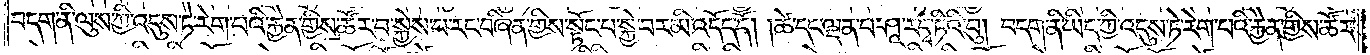བདག་ནི་ལུས་ཀྱི་འདུས་ཏེ་རེག་པའི་རྐྱེན་གྱིས་ཚོར་བ་སྐྱེས་པ་རང་བཞིན་གྱིས་སྟོང་པ་སྐྱེ་བར་མི་འདོད་དོ། །ཚེ་དང་ལྡན་པ་ཤཱ་ར་དྭ་ཏིའི་བུ། བདག་ནི་ཡིད་ཀྱི་འདུས་ཏེ་རེག་པའི་རྐྱེན་གྱིས་ཚོར་
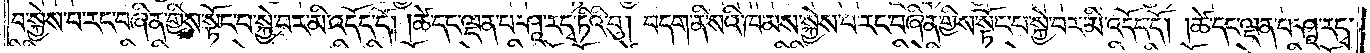བ་སྐྱེས་པ་རང་བཞིན་གྱིས་སྟོང་པ་སྐྱེ་བར་མི་འདོད་དོ། །ཚེ་དང་ལྡན་པ་ཤཱ་ར་དྭ་ཏིའི་བུ། བདག་ནི་སའི་ཁམས་སྐྱེས་པ་རང་བཞིན་གྱིས་སྟོང་པ་སྐྱེ་བར་མི་འདོད་དོ། །ཚེ་དང་ལྡན་པ་ཤཱ་ར་དྭ་
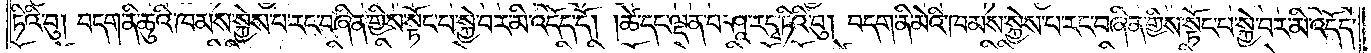ཏིའི་བུ། བདག་ནི་ཆུའི་ཁམས་སྐྱེས་པ་རང་བཞིན་གྱིས་སྟོང་པ་སྐྱེ་བར་མི་འདོད་དོ། །ཚེ་དང་ལྡན་པ་ཤཱ་ར་དྭ་ཏིའི་བུ། བདག་ནི་མེའི་ཁམས་སྐྱེས་པ་རང་བཞིན་གྱིས་སྟོང་པ་སྐྱེ་བར་མི་འདོད་
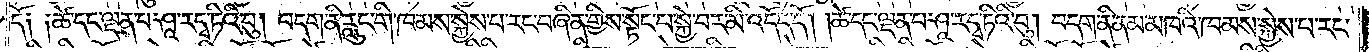དོ༏ ༏ཚེ་དང་ལྡན་པ་ཤཱ་ར་དྭ་ཏིའི་བུ། བདག་ནི་རླུང་གི་ཁམས་སྐྱེས་པ་རང་བཞིན་གྱིས་སྟོང་པ་སྐྱེ་བར་མི་འདོད་དོ། །ཚེ་དང་ལྡན་པ་ཤཱ་ར་དྭ་ཏིའི་བུ། བདག་ནི་ནམ་མཁའི་ཁམས་སྐྱེས་པ་རང་
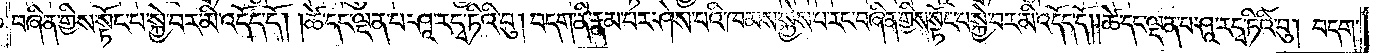བཞིན་གྱིས་སྟོང་པ་སྐྱེ་བར་མི་འདོད་དོ། །ཚེ་དང་ལྡན་པ་ཤཱ་ར་དྭ་ཏིའི་བུ། བདག་ནི་རྣམ་པར་ཤེས་པའི་ཁམས་སྐྱེས་པ་རང་བཞིན་གྱིས་སྟོང་པ་སྐྱེ་བར་མི་འདོད་དོ། །ཚེ་དང་ལྡན་པ་ཤཱ་ར་དྭ་ཏིའི་བུ། བདག་
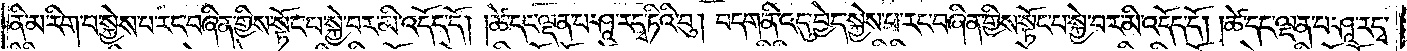ནི་མ་རིག་པ་སྐྱེས་པ་རང་བཞིན་གྱིས་སྟོང་པ་སྐྱེ་བར་མི་འདོད་དོ། །ཚེ་དང་ལྡན་པ་ཤཱ་ར་དྭ་ཏིའི་བུ། བདག་ནི་འདུ་བྱེད་སྐྱེས་པ་རང་བཞིན་གྱིས་སྟོང་པ་སྐྱེ་བར་མི་འདོད་དོ། །ཚེ་དང་ལྡན་པ་ཤཱ་ར་དྭ་
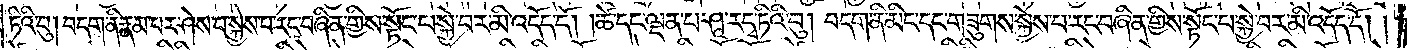ཏིའི་བུ། བདག་ནི་རྣམ་པར་ཤེས་པ་སྐྱེས་པ་རང་བཞིན་གྱིས་སྟོང་པ་སྐྱེ་བར་མི་འདོད་དོ། །ཚེ་དང་ལྡན་པ་ཤཱ་ར་དྭ་ཏིའི་བུ། བདག་ནི་མིང་དང་གཟུགས་སྐྱེས་པ་རང་བཞིན་གྱིས་སྟོང་པ་སྐྱེ་བར་མི་འདོད་དོ། །
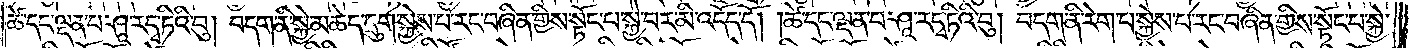ཚེ་དང་ལྡན་པ་ཤཱ་ར་དྭ་ཏིའི་བུ། བདག་ནི་སྐྱེ་མཆེད་དྲུག་སྐྱེས་པ་རང་བཞིན་གྱིས་སྟོང་པ་སྐྱེ་བར་མི་འདོད་དེ། །ཚེ་དང་ལྡན་པ་ཤཱ་ར་དྭ་ཏིའི་བུ། བདག་ནི་རེག་པ་སྐྱེས་པ་རང་བཞིན་གྱིས་སྟོང་པ་སྐྱེ་
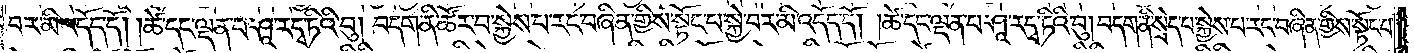བར་མི་འདོད་དོ། །ཚེ་དང་ལྡན་པ་ཤཱ་ར་དྭ་ཏིའི་བུ། བདག་ནི་ཚོར་བ་སྐྱེས་པ་རང་བཞིན་གྱིས་སྟོང་པ་སྐྱེ་བར་མི་འདོད་དོ། །ཚེ་དང་ལྡན་པ་ཤཱ་ར་དྭ་ཏིའི་བུ། བདག་ནི་སྲེད་པ་སྐྱེས་པ་རང་བཞིན་གྱིས་སྟོང་པ་
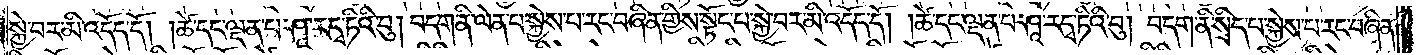སྐྱེ་བར་མི་འདོད་དོ། །ཚེ་དང་ལྡན་པ་ཤཱ་ར་དྭ་ཏིའི་བུ། བདག་ནི་ལེན་པ་སྐྱེས་པ་རང་བཞིན་གྱིས་སྟོང་པ་སྐྱེ་བར་མི་འདོད་དོ། །ཚེ་དང་ལྡན་པ་ཤཱ་ར་དྭ་ཏིའི་བུ། བདག་ནི་སྲིད་པ་སྐྱེས་པ་རང་བཞིན་
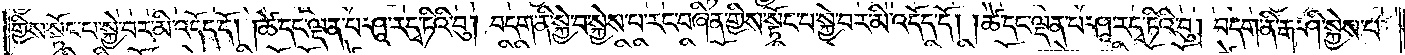གྱིས་སྟོང་པ་སྐྱེ་བར་མི་འདོད་དོ། །ཚེ་དང་ལྡན་པ་ཤཱ་ར་དྭ་ཏིའི་བུ། བདག་ནི་སྐྱེ་བ་སྐྱེས་པ་རང་བཞིན་གྱིས་སྟོང་པ་སྐྱེ་བར་མི་འདོད་དོ། །ཚེ་དང་ལྡན་པ་ཤཱ་ར་དྭ་ཏིའི་བུ། བདག་ནི་རྒ་ཤི་སྐྱེས་པ་
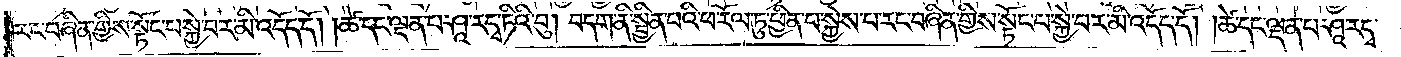རང་བཞིན་གྱིས་སྟོང་པ་སྐྱེ་བར་མི་འདོད་དོ། །ཚེ་དང་ལྡན་པ་ཤཱ་ར་དྭ་ཏིའི་བུ། བདག་ནི་སྦྱིན་པའི་ཕ་རོལ་ཏུ་ཕྱིན་པ་སྐྱེས་པ་རང་བཞིན་གྱིས་སྟོང་པ་སྐྱེ་བར་མི་འདོད་དོ། །ཚེ་དང་ལྡན་པ་ཤཱ་ར་དྭ་
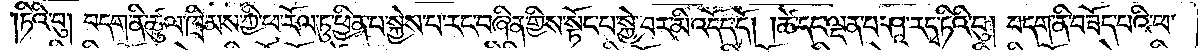ཏིའི་བུ། བདག་ནི་ཚུལ་ཁྲིམས་ཀྱི་ཕ་རོལ་ཏུ་ཕྱིན་པ་སྐྱེས་པ་རང་བཞིན་གྱིས་སྟོང་པ་སྐྱེ་བར་མི་འདོད་དོ། །ཚེ་དང་ལྡན་པ་ཤཱ་ར་དྭ་ཏིའི་བུ། བདག་ནི་བཟོད་པའི་ཕ་
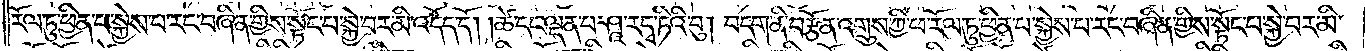རོལ་ཏུ་ཕྱིན་པ་སྐྱེས་པ་རང་བཞིན་གྱིས་སྟོང་པ་སྐྱེ་བར་མི་འདོད་དོ། །ཚེ་དང་ལྡན་པ་ཤཱ་ར་དྭ་ཏིའི་བུ། བདག་ནི་བརྩོན་འགྲུས་ཀྱི་ཕ་རོལ་ཏུ་ཕྱིན་པ་སྐྱེས་པ་རང་བཞིན་གྱིས་སྟོང་པ་སྐྱེ་བར་མི་
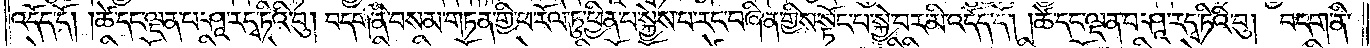འདོད་དོ། །ཚེ་དང་ལྡན་པ་ཤཱ་ར་དྭ་ཏིའི་བུ། བདག་ནི་བསམ་གཏན་གྱི་ཕ་རོལ་ཏུ་ཕྱིན་པ་སྐྱེས་པ་རང་བཞིན་གྱིས་སྟོང་པ་སྐྱེ་བར་མི་འདོད་དོ། །ཚེ་དང་ལྡན་པ་ཤཱ་ར་དྭ་ཏིའི་བུ། བདག་ནི་
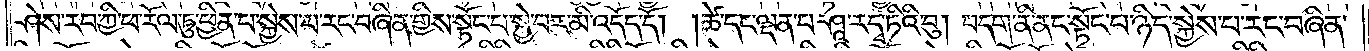ཤེས་རབ་ཀྱི་ཕ་རོལ་ཏུ་ཕྱིན་པ་སྐྱེས་པ་རང་བཞིན་གྱིས་སྟོང་པ་སྐྱེ་བར་མི་འདོད་དོ། །ཚེ་དང་ལྡན་པ་ཤཱ་ར་དྭ་ཏིའི་བུ། བདག་ནི་ནང་སྟོང་པ་ཉིད་སྐྱེས་པ་རང་བཞིན་
